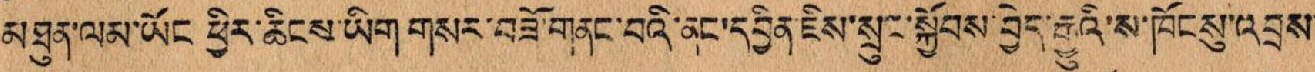མཐུན་ལམ་ཡོང ཕྱིར་ཆིངས་ཡིག་གསར་བཟོ་གནང་བའི་ནང་དབྱིན་ཇིས་སྲུང་སྐྱོབས་བྱེད་རྒྱུའི་ས་ཁོངསུ་འབྲས་
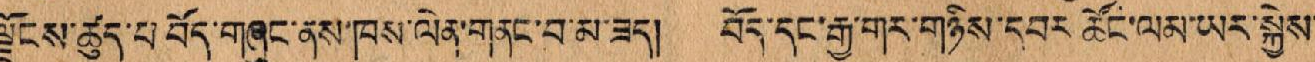ལྗོངས་ཚུད་པ བོད་གཞུང་ནས་ཁས་ལེན་གནང་བ་མ་ཟད། བོད་དང་རྒྱ་གར་གཉིས་དབར་ཚོང་ལམ་ཡར་སྐྱེས་
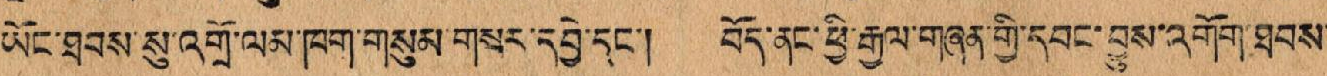ཡོང་ཐབས་སུ་འགྲོ་ལམ་ཁག་གསུམ་གསར་དབྱེ་དང་། བོད་ནང་ཕྱི་རྒྱལ་གཞན་གྱི་དབང་བྱུས་འགོག་ཐབས་
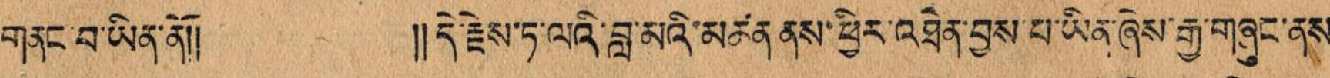གནང་བ་ཡིན་ནོ།། །།དེ་རྗེས་ཏ་ལའི་བླ་མའི་མཚན་ནས་ཕྱིར་འཐེན་བྱས་པ་ཡིན་ཞེས་རྒྱ་གཞུང་ནས་
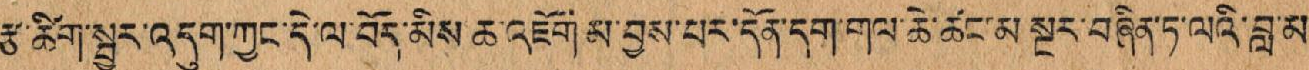རྩ་ཚིག་སྤྱར་འདུག་ཀྱང་དེ་ལ་བོད་མིས་ཆ་འཇོག་མ་བྱས་པར་དོན་དག་གལ་ཆེ་ཚང་མ་སྔར་བཞིན་ཏ་ལའི་བླ་མ་
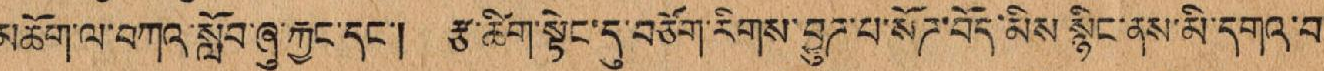མཆོག་ལ་བཀའ་སློབ་ཞུ་རྐྱང་དང་། རྩ་ཚིག་སྟེང་དུ་བཅོག་རིགས་བྱུཊ་པ་སོཊ་བོད་མིས་སྙིང་ནས་མི་དགའ་བ་
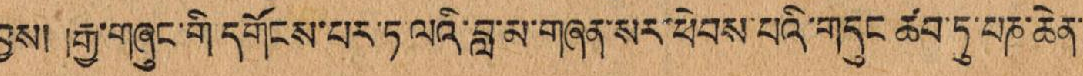བྱས། །རྒྱ་གཞུང་གི་དགོངས་པར་ཏ་ལའི་བླ་མ་གཞན་སར་ཕེབས་པའི་གདུང་ཚབ་ཏུ་པཎ་ཆེན་
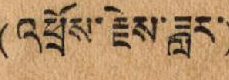(འཕྲོས་རྗེས་ཟླར)
